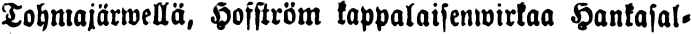Tohmajärwellä, Hofström kappalaisenwirkaa Hankasal-
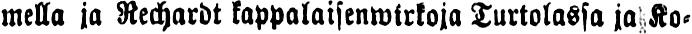mella ja Rechardt kappalaisenwirkoja Turtolassa ja Ko-
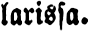larissa.
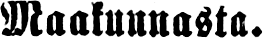Maakunnasta.
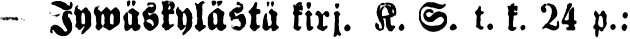- JywäskyläStä kirj. K. S. t. k. 24 p.:
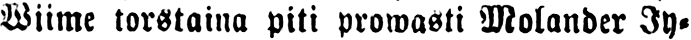Wiime torstaina piti prowasti Molander Jy-
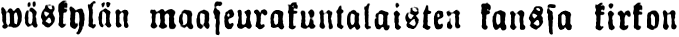wäskylän maaseurakuntalaisten kanssa kirkon-
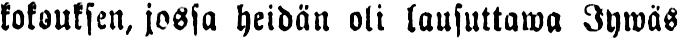kokouksen, jossa heidän oli lausuttawa Jywäs
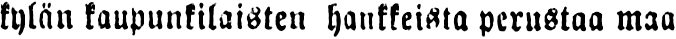kylän kaupunkilaisten hankkeista perustaa maa
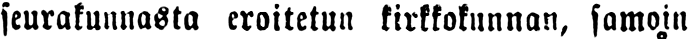seurakunnasta eroitetun kirkkokunnan, samoin
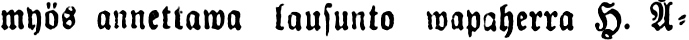myös annettawa lausunto wapaherra H. Å-
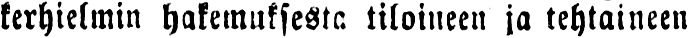kerhielmin hakemuksesta tiloineen ja tehtaineen
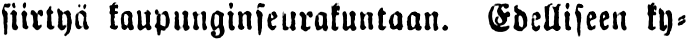siirtyä kaupunginseurakuntaan. Edelliseen ky-
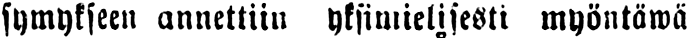symykseen annettiin yksimielisesti myöntäwä
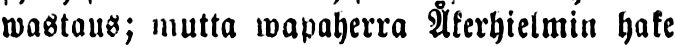wastaus; mutta wapaherra Åkerhielmin hake-
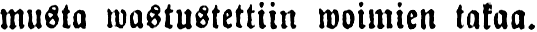musta wastustettiin woimien takaa.
